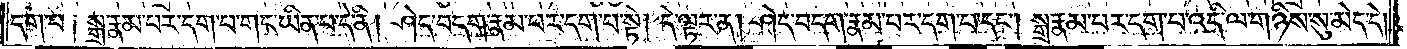དག་པ༑ སྒྲ་རྣམ་པར་དག་པ་གང་ཡིན་པ་དེ་ནི། ཤེད་བདག་རྣམ་པར་དག་པ་སྟེ། དེ་ལྟར་ན། ཤེད་བདག་རྣམ་པར་དག་པ་དང༌། སྒྲ་རྣམ་པར་དག་པ་འདི་ལ་གཉིས་སུ་མེད་དེ།
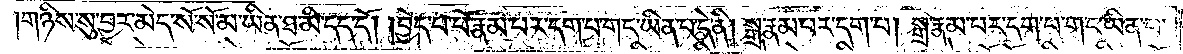གཉིས་སུ་བྱར་མེད་སོ་སོ་མ་ཡིན་ཐ་མི་དད་དོ། །བྱེད་པ་པོ་རྣམ་པར་དག་པ་གང་ཡིན་པ་དེ་ནི། སྒྲ་རྣམ་པར་དག་པ། སྒྲ་རྣམ་པར་དག་པ་གང་ཡིན་པ་
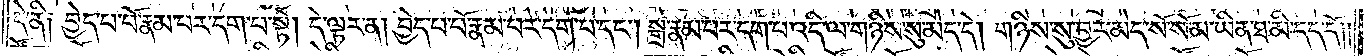དེ་ནི༑ བྱེད་པ་པོ་རྣམ་པར་དག་པ་སྟེ། དེ་ལྟར་ན། བྱེད་པ་པོ་རྣམ་པར་དག་པ་དང༌། སྒྲ་རྣམ་པར་དག་པ་འདི་ལ་གཉིས་སུ་མེད་དེ། གཉིས་སུ་བྱར་མེད་སོ་སོ་མ་ཡིན་ཐ་མི་དད་དོ། །
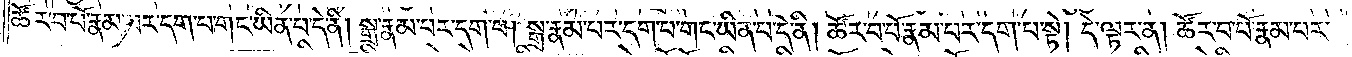ཚོར་བ་པོ་རྣམ་པར་དག་པ་གང་ཡིན་པ་དེ་ནི། སྒྲ་རྣམ་པར་དག་པ། སྒྲ་རྣམ་པར་དག་པ་གང་ཡིན་པ་དེ་ནི། ཚོར་བ་པོ་རྣམ་པར་དག་པ་སྟེ། དེ་ལྟར་ན། ཚོར་བ་པོ་རྣམ་པར་
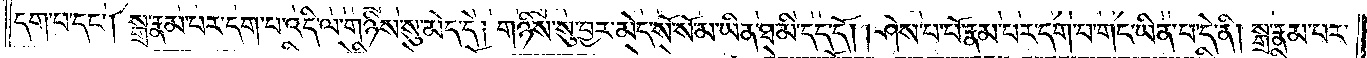དག་པ་དང༌། སྒྲ་རྣམ་པར་དག་པ་འདི་ལ་གཉིས་སུ་མེད་དེ། གཉིས་སུ་བྱར་མེད་སོ་སོ་མ་ཡིན་ཐ་མི་དད་དོ། །ཤེས་པ་པོ་རྣམ་པར་དག་པ་གང་ཡིན་པ་དེ་ནི། སྒྲ་རྣམ་པར་
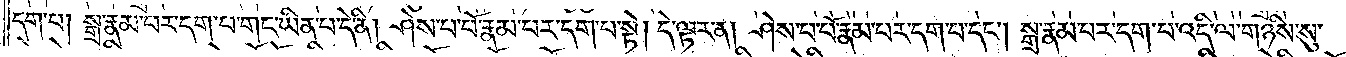དག་པ། སྒྲ་རྣམ་པར་དག་པ་གང་ཡིན་པ་དེ་ནི། ཤེས་པ་པོ་རྣམ་པར་དག་པ་སྟེ། དེ་ལྟར་ན། ཤེས་པ་པོ་རྣམ་པར་དག་པ་དང༌། སྒྲ་རྣམ་པར་དག་པ་འདི་ལ་གཉིས་སུ་
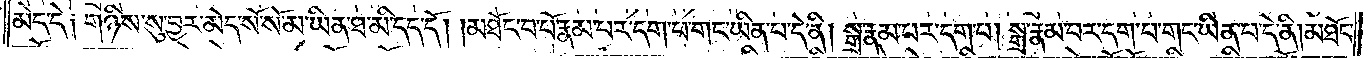མེད་དེ༑ གཉིས་སུ་བྱར་མེད་སོ་སོ་མ་ཡིན་ཐ་མི་དད་དོ། །མཐོང་བ་པོ་རྣམ་པར་དག་པ་གང་ཡིན་པ་དེ་ནི། སྒྲ་རྣམ་པར་དག་པ། སྒྲ་རྣམ་པར་དག་པ་གང་ཡིན་པ་དེ་ནི། མཐོང་
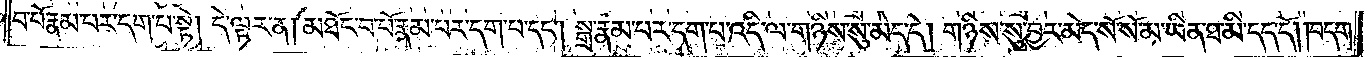བ་པོ་རྣམ་པར་དག་པ་སྟེ། དེ་ལྟར་ན། མཐོང་བ་པོ་རྣམ་པར་དག་པ་དང༌། སྒྲ་རྣམ་པར་དག་པ་འདི་ལ་གཉིས་སུ་མེད་དེ། གཉིས་སུ་བྱར་མེད་སོ་སོ་མ་ཡིན་ཐ་མི་དད་དོ། །བདག་
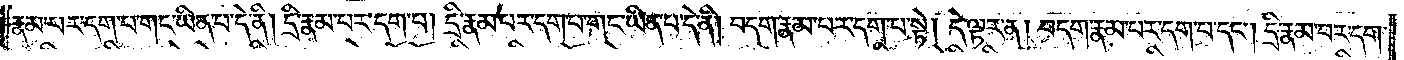རྣམ་པར་དག་པ་གང་ཡིན་པ་དེ་ནི། དྲི་རྣམ་པར་དག་པ། དྲི་རྣམ་པར་དག་པ་གང་ཡིན་པ་དེ་ནི། བདག་རྣམ་པར་དག་པ་སྟེ། དེ་ལྟར་ན། བདག་རྣམ་པར་དག་པ་དང༌། དྲི་རྣམ་པར་དག་
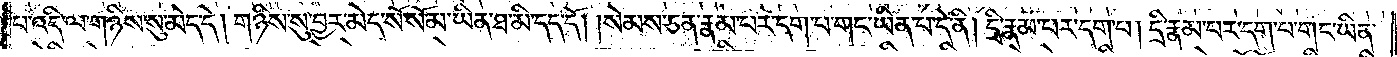པ་འདི་ལ་གཉིས་སུ་མེད་དེ། གཉིས་སུ་བྱར་མེད་སོ་སོ་མ་ཡིན་ཐ་མི་དད་དོ། །སེམས་ཅན་རྣམ་པར་དག་པ་གང་ཡིན་པ་དེ་ནི། དྲི་རྣམ་པར་དག་པ། དྲི་རྣམ་པར་དག་པ་གང་ཡིན་
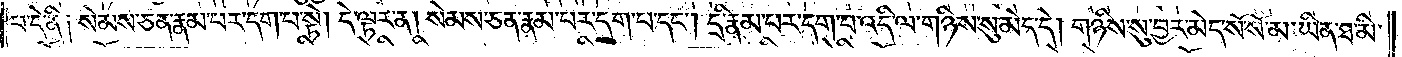པ་དེ་ནི༑ སེམས་ཅན་རྣམ་པར་དག་པ་སྟེ། དེ་ལྟར་ན། སེམས་ཅན་རྣམ་པར་དག་པ་དང༌། དྲི་རྣམ་པར་དག་པ་འདི་ལ་གཉིས་སུ་མེད་དེ། གཉིས་སུ་བྱར་མེད་སོ་སོ་མ་ཡིན་ཐ་མི་
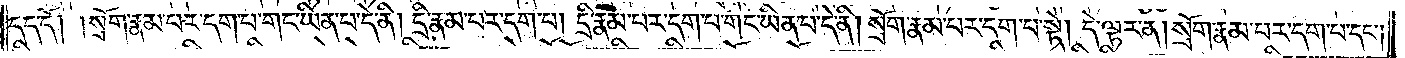དད་དོ༑ ༑སྲོག་རྣམ་པར་དག་པ་གང་ཡིན་པ་དེ་ནི། དྲི་རྣམ་པར་དག་པ། དྲི་རྣམ་པར་དག་པ་གང་ཡིན་པ་དེ་ནི། སྲོག་རྣམ་པར་དག་པ་སྟེ། དེ་ལྟར་ན། སྲོག་རྣམ་པར་དག་པ་དང༌།
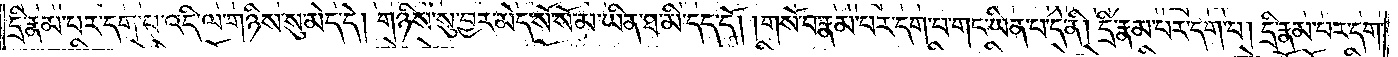དྲི་རྣམ་པར་དག་པ་འདི་ལ་གཉིས་སུ་མེད་དེ། གཉིས་སུ་བྱར་མེད་སོ་སོ་མ་ཡིན་ཐ་མི་དད་དོ། །གསོ་བ་རྣམ་པར་དག་པ་གང་ཡིན་པ་དེ་ནི། དྲི་རྣམ་པར་དག་པ། དྲི་རྣམ་པར་དག་
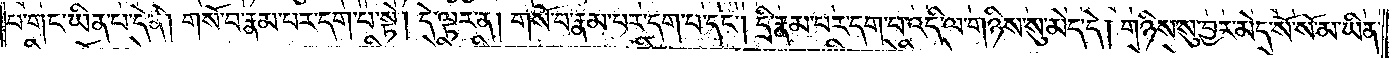པ་གང་ཡིན་པ་དེ་ནི། གསོ་བ་རྣམ་པར་དག་པ་སྟེ། དེ་ལྟར་ན། གསོ་བ་རྣམ་པར་དག་པ་དང༌། དྲི་རྣམ་པར་དག་པ་འདི་ལ་གཉིས་སུ་མེད་དེ། གཉིས་སུ་བྱར་མེད་སོ་སོ་མ་ཡིན་
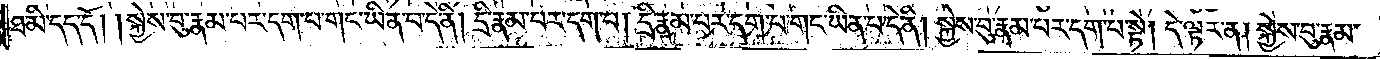ཐ་མི་དད་དོ། །སྐྱེས་བུ་རྣམ་པར་དག་པ་གང་ཡིན་པ་དེ་ནི། དྲི་རྣམ་པར་དག་པ། དྲི་རྣམ་པར་དག་པ་གང་ཡིན་པ་དེ་ནི། སྐྱེས་བུ་རྣམ་པར་དག་པ་སྟེ། དེ་ལྟར་ན། སྐྱེས་བུ་རྣམ་
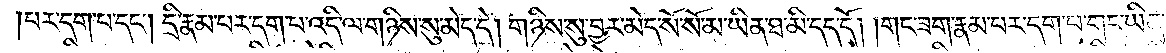པར་དག་པ་དང༌། དྲི་རྣམ་པར་དག་པ་འདི་ལ་གཉིས་སུ་མེད་དེ། གཉིས་སུ་བྱར་མེད་སོ་སོ་མ་ཡིན་ཐ་མི་དད་དོ། །གང་ཟག་རྣམ་པར་དག་པ་གང་ཡིན་པ་
